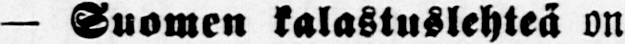— Suomen kalastuslehteä on
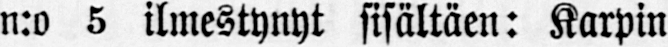n:o 5 ilmestynyt sisältäen: Karpin
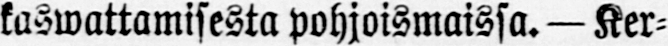kaswattamisesta pohjoismaissa.—Ker-
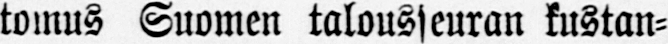tomus Suomen talouskuran kustan-
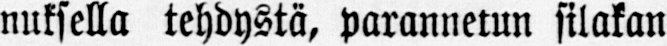nuksella tehdystä, parannetun silakan
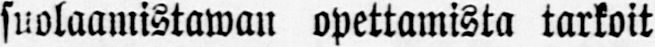suolaamistawan opettamista tarkoit
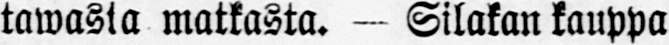tawasta matkasta. - Silakan kauppa
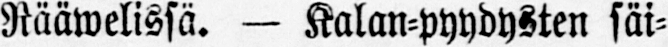Nääwelissä. — Kalan-pyydysten säi-
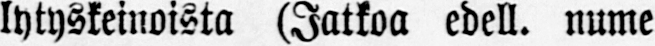lytyskeinoista (Jatkoa edell. nume
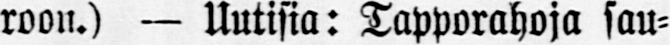roon.) — Uutisia: Tapporahoja sau-
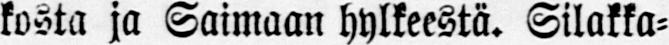kosta ja Saimaan hylkeestä. Silakka-
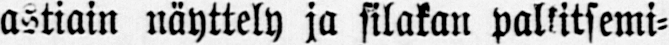astiain näyttely ja silakan palkitsemi-
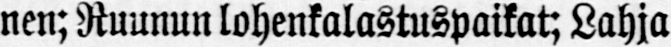nen; Ruunun lohenkalastuspaikat; Lahja
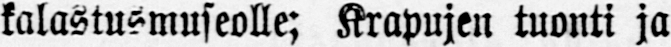kalastusmuseolle; Krapujen tuonti ja
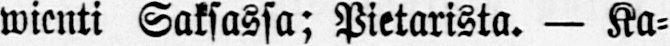wienti Saksassa; Pietarista. — Ka-
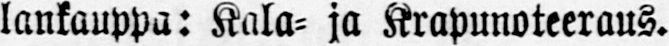lankauppa: Kala- ja Krapunoteeraus.
